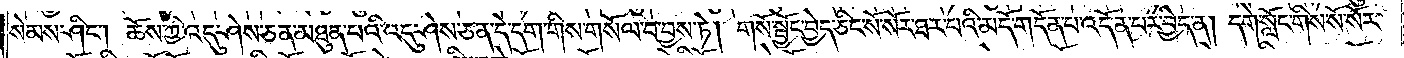སེམས་ཤིང༌། ཆོས་ཀྱི་འདུ་ཤེས་ཅན་མཐུན་པའི་འདུ་ཤེས་ཅན་དེ་དག་གིས་གསོལ་བ་བྱས་ཏེ། གསོ་སྦྱོང་བྱེད་ཅིང་སོ་སོར་ཐར་པའི་མདོ་གདོན་པ་འདོན་པར་བྱེད་ན། དགེ་སློང་གིས་སོ་སོར་
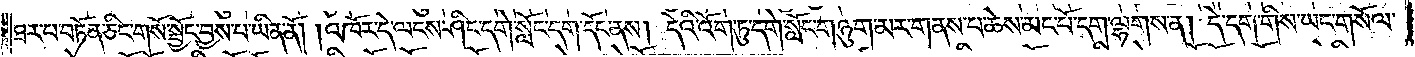ཐར་པ་བཏོན་ཅིང་གསོ་སྦྱོང་བྱས་པ་ཡིན་ནོ། །འཁོར་དེ་ལངས་ཤིང་དགེ་སློང་དག་དོང་ནས། དེའི་འོག་ཏུ་དགེ་སློང་གཉུག་མར་གནས་པ་ཆེས་མང་པོ་དག་ལྷགས་ན། དེ་དག་གིས་ཡང་གསོལ་
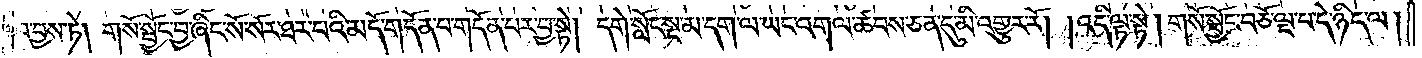བ་བྱས་ཏེ། གསོ་སྦྱོང་བྱ་ཞིང་སོ་སོར་ཐར་པའི་མདོ་གདོན་པ་གདོན་པར་བྱ་སྟེ། དགེ་སློང་སྔ་མ་དག་ལ་ཡང་འགལ་ཚབས་ཅན་དུ་མི་འགྱུར་རོ། །འདི་ལྟ་སྟེ། གསོ་སྦྱོང་བཅོ་ལྔ་པ་དེ་ཉིད་ལ།
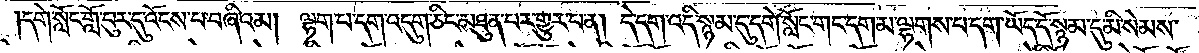དགེ་སློང་གློ་བུར་དུ་འོངས་པ་བཞིའམ། ལྷག་པ་དག་འདུག་ཅིང་མཐུན་པར་གྱུར་པ་ན། དེ་དག་འདི་སྙམ་དུ་དགེ་སློང་གང་དག་མ་ལྷགས་པ་དག་ཡོད་དོ་སྙམ་དུ་མི་སེམས་
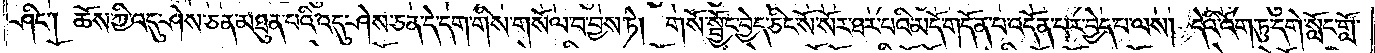ཤིང༌། ཆོས་ཀྱི་འདུ་ཤེས་ཅན་མཐུན་པའི་འདུ་ཤེས་ཅན་དེ་དག་གིས་གསོལ་བ་བྱས་ཏེ། གསོ་སྦྱོང་བྱེད་ཅིང་སོ་སོར་ཐར་པའི་མདོ་གདོན་པ་འདོན་པར་བྱེད་པ་ལས། དེའི་འོག་ཏུ་དགེ་སློང་གློ་
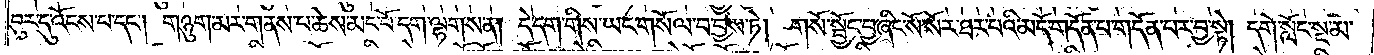བུར་དུ་འོངས་པ་དང༌། གཉུག་མར་གནས་པ་ཆེས་མང་པོ་དག་ལྷགས་ན། དེ་དག་གིས་ཡང་གསོལ་བ་བྱས་ཏེ། གསོ་སྦྱོང་བྱ་ཞིང་སོ་སོར་ཐར་པའི་མདོ་གདོན་པ་གདོན་པར་བྱ་སྟེ། དགེ་སློང་སྔ་མ་
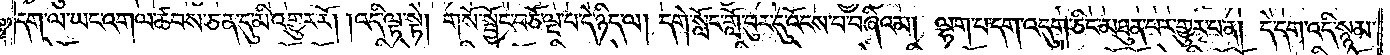དག་ལ་ཡང་འགལ་ཚབས་ཅན་དུ་མི་འགྱུར་རོ། །འདི་ལྟ་སྟེ། གསོ་སྦྱོང་བཅོ་ལྔ་པ་དེ་ཉིད་ལ། དགེ་སློང་གློ་བུར་དུ་འོངས་པ་བཞིའམ། ལྷག་པ་དག་འདུག་ཅིང་མཐུན་པར་གྱུར་པ་ན། དེ་དག་འདི་སྙམ་
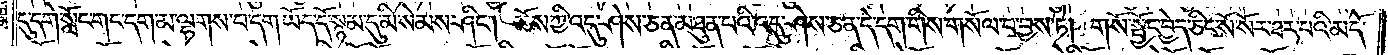དུ་དགེ་སློང་གང་དག་མ་ལྷགས་པ་དག་ཡོད་དོ་སྙམ་དུ་མི་སེམས་ཤིང༌། ཆོས་ཀྱི་འདུ་ཤེས་ཅན་མཐུན་པའི་འདུ་ཤེས་ཅན་དེ་དག་གིས་གསོལ་བ་བྱས་ཏེ། གསོ་སྦྱོང་བྱེད་ཅིང་སོ་སོར་ཐར་པའི་མདོ་
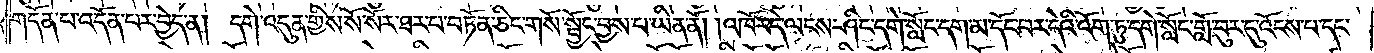གདོན་པ་འདོན་པར་བྱེད་ན། དགེ་འདུན་གྱིས་སོ་སོར་ཐར་པ་བཏོན་ཅིང་གསོ་སྦྱོང་བྱས་པ་ཡིན་ནོ། །འཁོར་དེ་ལངས་ཤིང་དགེ་སློང་དག་མ་དོང་བར་དེའི་འོག་ཏུ་དགེ་སློང་གློ་བུར་དུ་འོངས་པ་དང་
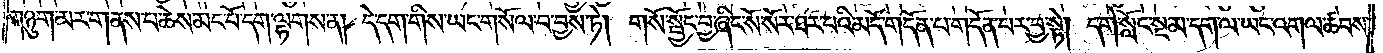གཉུག་མར་གནས་པ་ཆེས་མང་པོ་དག་ལྷགས་ན། དེ་དག་གིས་ཡང་གསོལ་བ་བྱས་ཏེ། གསོ་སྦྱོང་བྱ་ཞིང་སོ་སོར་ཐར་པའི་མདོ་གདོན་པ་གདོན་པར་བྱ་སྟེ། དགེ་སློང་སྔ་མ་དག་ལ་ཡང་འགལ་ཚབས་
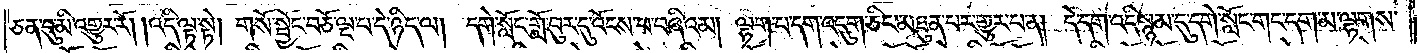ཅན་དུ་མི་འགྱུར་རོ། །འདི་ལྟ་སྟེ། གསོ་སྦྱོང་བཅོ་ལྔ་པ་དེ་ཉིད་ལ། དགེ་སློང་གློ་བུར་དུ་འོངས་པ་བཞིའམ། ལྷག་པ་དག་འདུག་ཅིང་མཐུན་པར་གྱུར་པ་ན། དེ་དག་འདི་སྙམ་དུ་དགེ་སློང་གང་དག་མ་ལྷགས་
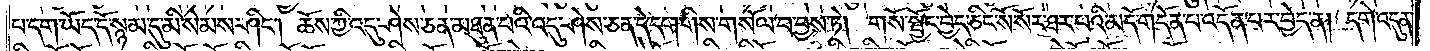པ་དག་ཡོད་དོ་སྙམ་དུ་མི་སེམས་ཤིང༌། ཆོས་ཀྱི་འདུ་ཤེས་ཅན་མཐུན་པའི་འདུ་ཤེས་ཅན་དེ་དག་གིས་གསོལ་བ་བྱས་ཏེ། གསོ་སྦྱོང་བྱེད་ཅིང་སོ་སོར་ཐར་པའི་མདོ་གདོན་པ་འདོན་པར་བྱེད་ན། དགེ་འདུན་
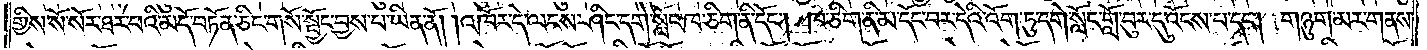གྱིས་སོ་སོར་ཐར་པའི་མདོ་བཏོན་ཅིང་གསོ་སྦྱོང་བྱས་པ་ཡིན་ནོ། །འཁོར་དེ་ལངས་ཤིང་དགེ་སློང་ཁ་ཅིག་ནི་དོང༌། ཁ་ཅིག་ནི་མ་དོང་བར་དེའི་འོག་ཏུ་དགེ་སློང་གློ་བུར་དུ་འོངས་པ་དང༌། གཉུག་མར་གནས་
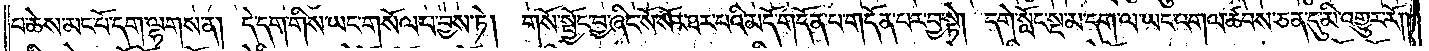པ་ཆེས་མང་པོ་དག་ལྷགས་ན། དེ་དག་གིས་ཡང་གསོལ་བ་བྱས་ཏེ། གསོ་སྦྱོང་བྱ་ཞིང་སོ་སོར་ཐར་པའི་མདོ་གདོན་པ་གདོན་པར་བྱ་སྟེ། དགེ་སློང་སྔ་མ་དག་ལ་ཡང་འགལ་ཚབས་ཅན་དུ་མི་འགྱུར་རོ༎
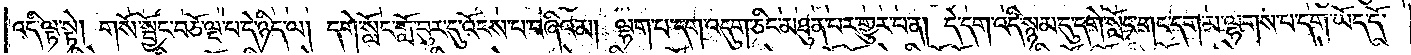འདི་ལྟ་སྟེ། གསོ་སྦྱོང་བཅོ་ལྔ་པ་དེ་ཉིད་ལ། དགེ་སློང་གློ་བུར་དུ་འོངས་པ་བཞིའམ། ལྷག་པ་དག་འདུག་ཅིང་མཐུན་པར་གྱུར་པ་ན། དེ་དག་འདི་སྙམ་དུ་དགེ་སློང་གང་དག་མ་ལྷགས་པ་དག་ཡོད་དོ་
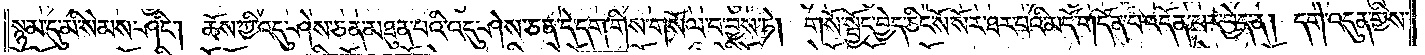སྙམ་དུ་མི་སེམས་ཤིང༌། ཆོས་ཀྱི་འདུ་ཤེས་ཅན་མཐུན་པའི་འདུ་ཤེས་ཅན་དེ་དག་གིས་གསོལ་བ་བྱས་ཏེ། གསོ་སྦྱོང་བྱེད་ཅིང་སོ་སོར་ཐར་པའི་མདོ་གདོན་པ་འདོན་པར་བྱེད་ན། དགེ་འདུན་གྱིས་
